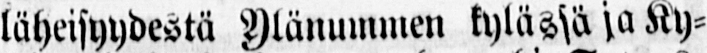läheisyydestä Ylänummen kylässä ja Ky-
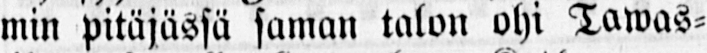min pitäjässä saman talon ohi Tawas-
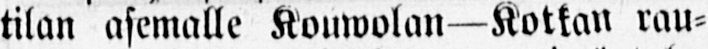tilan asemalle Kouwolan—Kotkan rau-
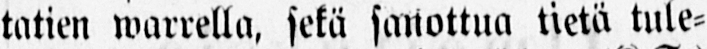tatien warrella, sekä sanottua tietä tule-
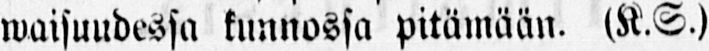waisuudessa kunnossa pitämään. (K.S.)
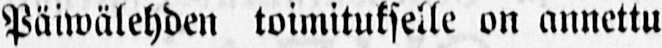Päiwälehden toimitukselle on annettu
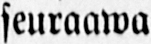seuraawa
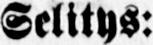Selitys:
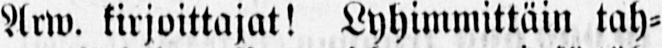Arw. kirjoittajat! Lyhimmittäin tah-
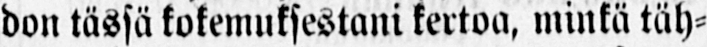don tässä kokemuksestani kertoa, minkä täh-
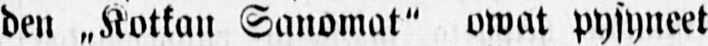den ˶Kotkan Sanomat" owat pysyneet
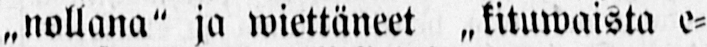˶nollana" ja wiettäneet „kituwaista e-
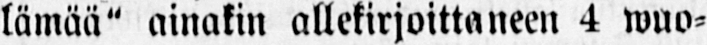lämää" ainakin allekirjoittaneen 4 wuo-
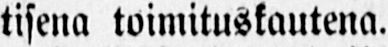tisena toimituskautena.
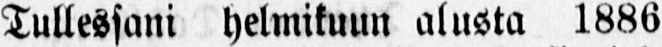Tullessani helmikuun alusta 1886
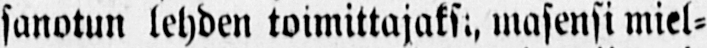sanotun lehden toimittajaksi, masensi miel-
